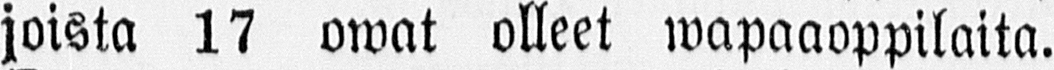joista 17 owat olleet wapaaoppilaita.
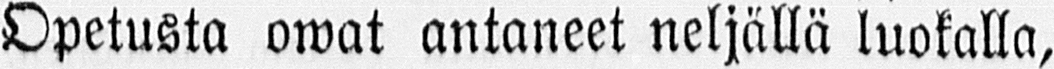Opetusta owat antaneet neljällä luokalla,
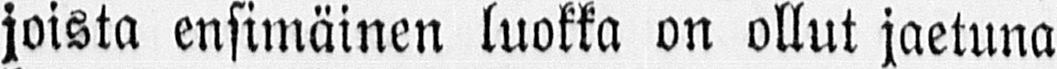joista ensimäinen luokka on ollut jaetuna
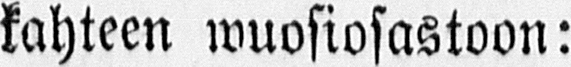kahteen wuosiosastoon:
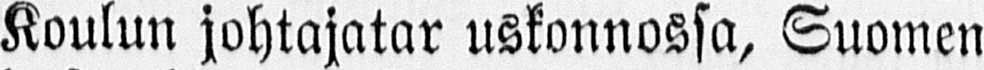Koulun johtajatar uskonnossa, Suomen
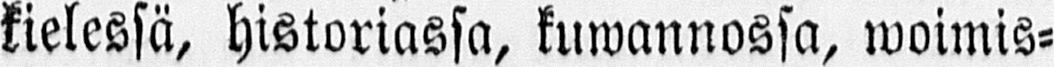kielessä, historiassa, kuwannossa, woimis-
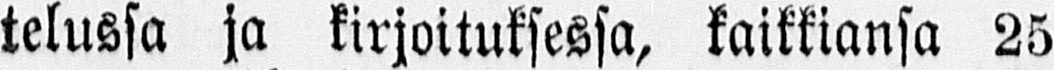telussa ja kirjoituksessa, kaikkiansa 25
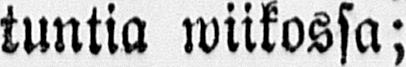tuntia wiikossa;
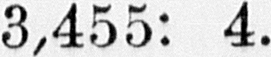3,455: 4.
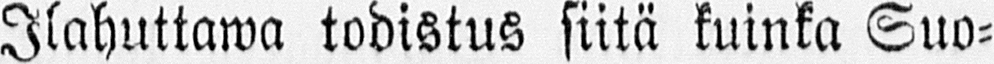Ilahuttawa todistus siitä kuinka Suo-
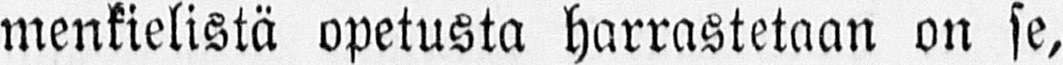menkielistä opetusta harrastetaan on se,
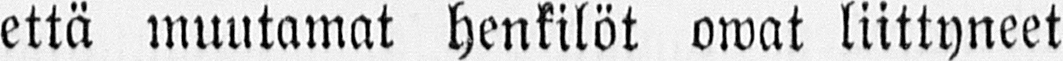että muutamat henkilöt owat liittyneet
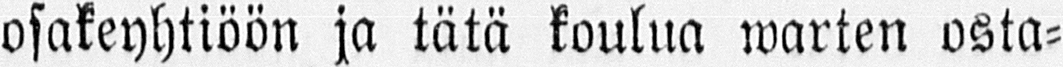osakeyhtiöön ja tätä koulua warten osta-
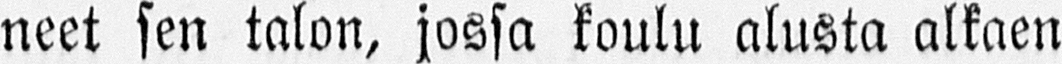neet sen talon, jossa koulu alusta alkaen
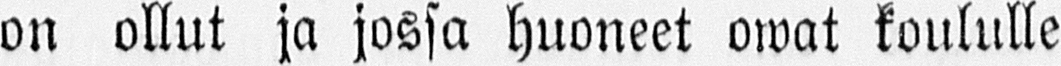on ollut ja jossa huoneet owat koululle
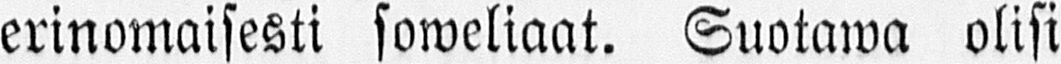erinomaisesti soweliaat. Suotawa olisi
